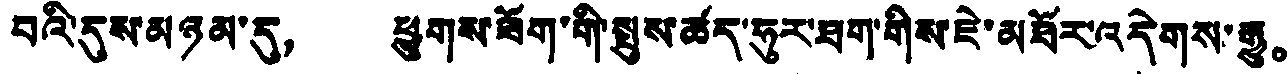བའི་དུས་མཉམ་དུ， ཕྱུགས་ཟོག་གི་སྤུས་ཚད་ཧུར་ཐག་གིས་ཇེ་མཐོར་འདེགས་རྒྱུ。
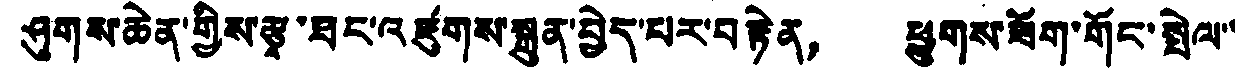ཤུགས་ཆེན་གྱིས་རྩྭ་ཐང་འཛུགས་སྐྲུན་བྱེད་པར་བརྟེན， ཕྱུགས་ཟོག་གོང་སྤེལ་་
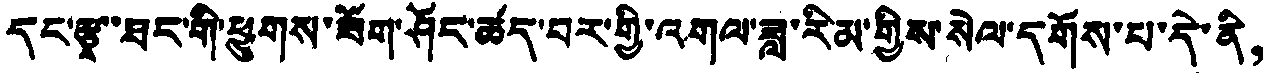དང་རྩྭ་ཐང་གི་ཕྱུགས་ཟོག་ཤོང་ཚད་བར་གྱི་འགལ་ཟླ་རིམ་གྱིས་སེལ་དགོས་པ་དེ་ནི，
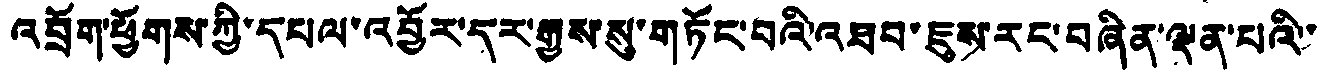འབྲོག་ཕྱོགས་ཀྱི་དཔལ་འབྱོར་དར་རྒྱས་སུ་གཏོང་བའི་འཐབ་ཇུས་རང་བཞིན་ལྡན་པའི་་
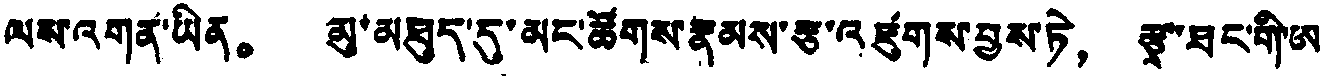ལས་འགན་ཡིན。 མུ་མཐུད་དུ་མང་ཚོགས་རྣམས་རྩ་འཛུགས་བྱས་ཏེ， རྩྭ་ཐང་གི་ཨ
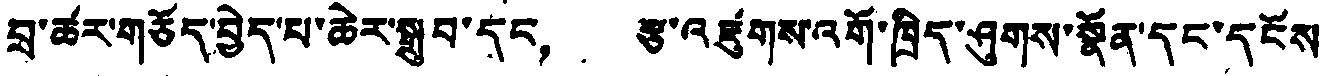བྲ་ཚར་གཅོད་བྱེད་པ་ཆེར་སྒྲུབ་དང， རྩ་འཛུགས་འགོ་ཁྲིད་ཤུགས་སྣོན་དང་དངོས
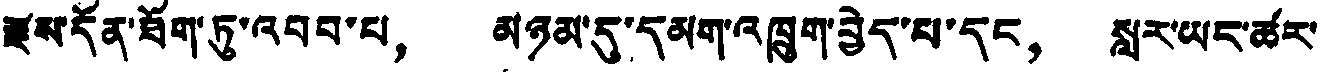རྫོས་དོན་ཐོག་ཏུ་འབབ་པ， མཉམ་དུ་དམག་འཁྲུག་བྱེད་པ་དང， སླར་ཡང་ཚར་
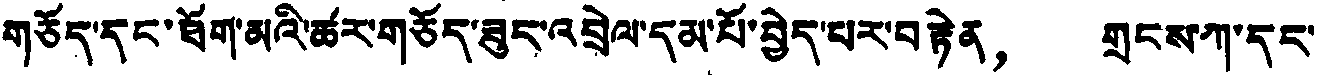གཅོད་དང་ཐོག་མའི་ཚར་གཅོད་ཟུང་འབྲེལ་དམ་པོ་བྱེད་པར་བརྟེན， གྲངས་ཀ་དང་
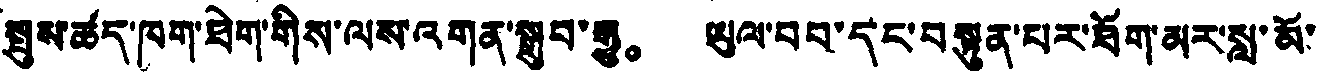སྤུས་ཚད་ཁག་ཐེག་གིས་ལས་འགན་སྒྲུབ་རྒྱུ。 ཡུལ་བབ་དང་བསྟུན་པར་ཐོག་མར་སླ་མོ་
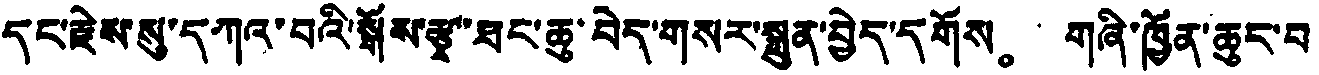དང་རྗེས་སུ་དཀའ་བའི་སྒོས་རྩྭ་ཐང་ཆུ་བེད་གསར་སྐྲུན་བྱེད་དགོས。 གཞི་ཁྱོན་ཆུང་བ་
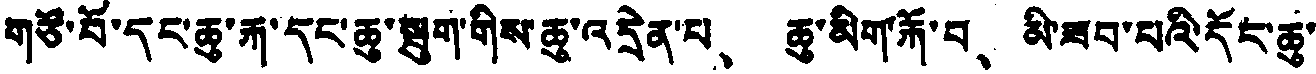གཙོ་བོ་དང་ཆུ་རྐ་དང་ཆུ་སྦུག་གིས་ཆུ་འདྲེན་པ、 ཆུ་མིག་རྐོ་བ、 མི་ཟབ་པའི་དོང་ཆུ་
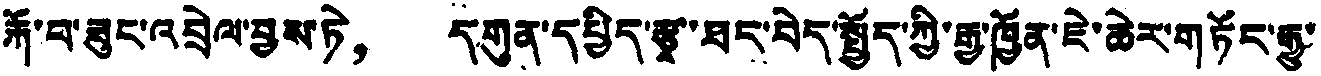རྐོ་བ་ཟུང་འབྲེལ་བྱས་ཏེ， དགུན་དཔྱིད་རྩྭ་ཐང་བེད་སྤྱོད་ཀྱི་རྒྱ་ཁྱོན་ཇེ་ཆེར་གཏོང་རྒྱུ་
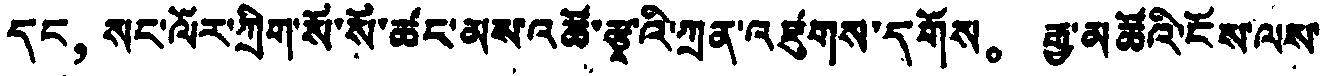དང， སང་ལོར་ཀྲིག་སོ་སོ་ཚང་མས་འཚོ་རྩྭའི་ཀྲན་འཛུགས་དགོས。 རྒྱ་མཚོའི་ངོས་ལས་
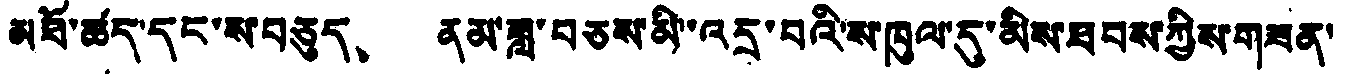མཐོ་ཚད་དང་ས་བཅུད、 ནམ་ཟླ་བཅས་མི་འདྲ་བའི་ས་ཁུལ་དུ་མིས་ཐབས་ཀྱིས་གཟན་
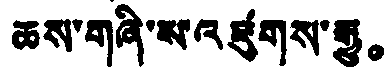ཆོས་གཞི་ས་འཛུགས་རྒྱུ。
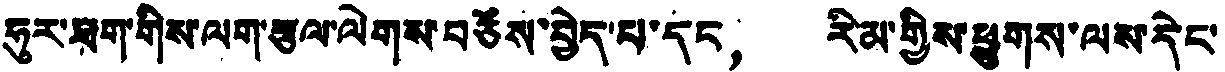ཧུར་ཐག་གིས་ལག་རྩལ་ལེགས་བཅོས་བྱེད་པ་དང， རིམ་གྱིས་ཕྱུགས་ལས་དེང་
